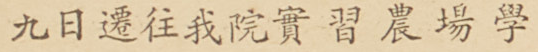九日遷往我院實習農場學
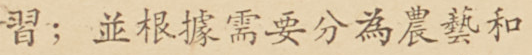習；並根據需要分爲農藝和
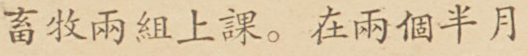畜牧兩組上課。在兩個半月
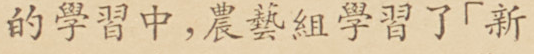的學習中，農藝組學習了「新
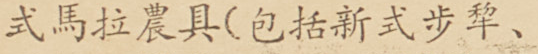式馬拉農具（包括新式步犂、
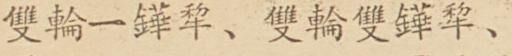雙輪一鏵犂、雙輪雙鏵犂、
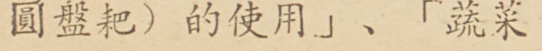圓盤耙）的使用」、「蔬菜
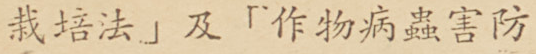栽培法」及「作物病蟲害防
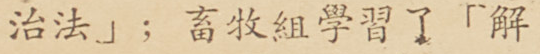治法」；畜牧組學習了「解
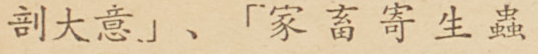剖大意」、「家畜寄生蟲
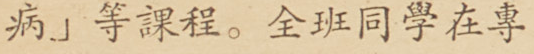病」等課程。全班同學在專
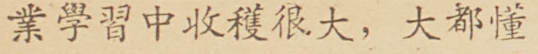業學習中收穫很大，大都懂
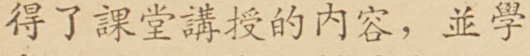得了課堂講授的內容，並學
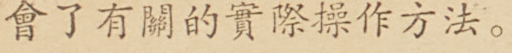會了有關的實際操作方法。
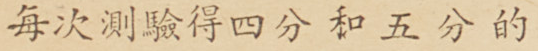每次測驗得四分和五分的
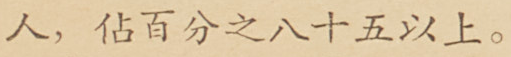人，佔百分之八十五以上。
